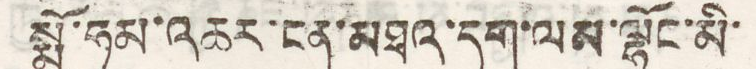སྨྱོ་ཧམ་འཆར་ངན་མཐའ་དག་ལམ་ལྷོང་མི་
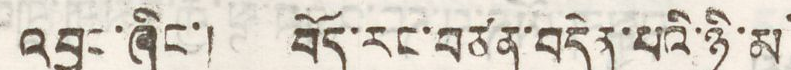འབྱུང་ཞིང་། བོད་རང་བཙན་བདེན་པའི་ཉི་མ་
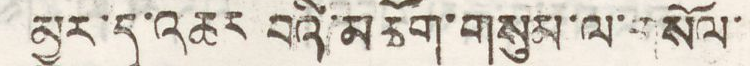མྱུར་དུ་འཆར བའི་མཆོག་གསུམ་ལ་གསོལ་
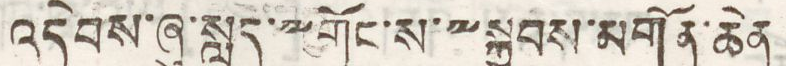འདེབས་ཞུ་སླད་༸གོང་ས་༸སྐྱབས་མགོན་ཆེན་
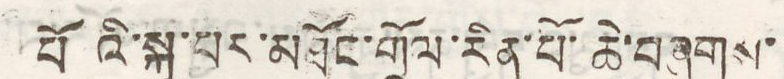པོའི་སྐུ་པར་མཐོང་གྲོལ་རིན་པོ་ཆེ་བཞུགས་
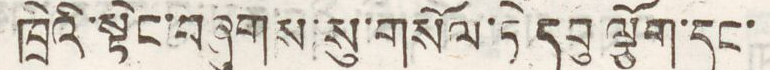ཁྲིའི་སྟེང་བཞུགས་སུ་གསོལ་ཏེ་དབུ ལྕོག་དང་
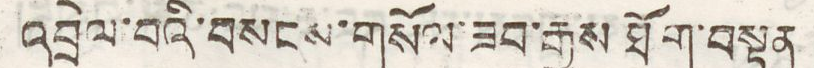འབྲེལ་བའི་བསངས་གསོལ་ཟབ་རྒྱས ཐོག་བསྟན
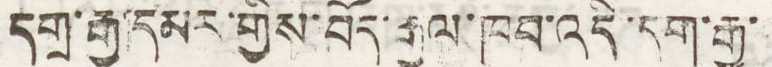དགྲ་རྒྱ་དམར་གྱིས་བོད་རྒྱལ་ཁབ་འདི་དག་རྒྱ་
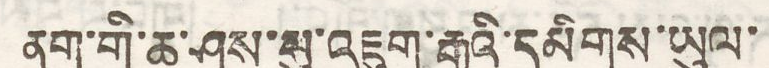ནག་གི་ཆ་ཤས་སུ་འཇུག་རྒྱུའི་དམིགས་ཡུལ་
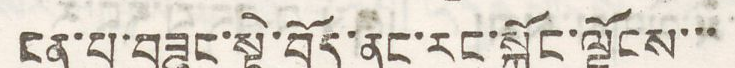ངན་པ་བཟུང་སྟེ་བོད་ནང་རང་སྐྱོང་ལྗོངས་་་
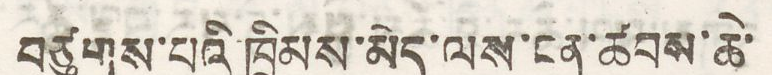བཙུགས་པའི་ཁྲིམས་མེད་ལས་ངན་ཚབས་ཆེ་
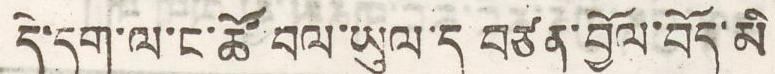དེ་དག་ལ་ང་ཚོ་བལ་ཡུལ་དུ བཙན་བྱོལ་བོད་མི
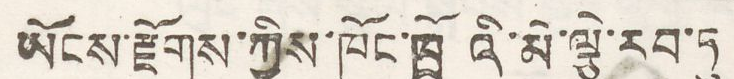ཡོངས་རྫོགས་ཀྱིས་ཁོང་ཁྲོའི་མེ་ལྕེ་རབ་ཏུ
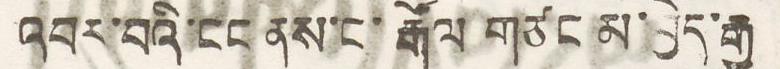འབར་བའི་ངང་ནས་ང་རྒོལ གཙང་མ་བྱེད་རྒྱུ
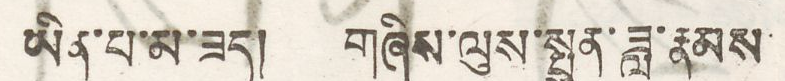ཡིན་པ་མ་ཟད། གཞིས་ལུས་སྤུན་ཟླ་རྣམས་
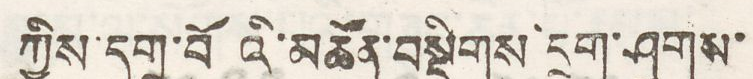ཀྱིས་དགྲ་བོའི་མཚོན་བསྡིགས དྲག་ཤུགས་
